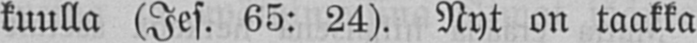kuulla (Jes. 65: 24). Nyt on taakka
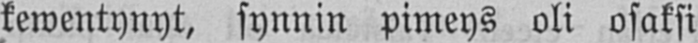kewentynyt, synnin pimeys oli osaksi
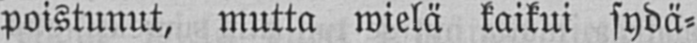poistunut, mutta wielä kaikui sydä-
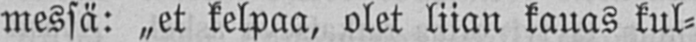messä: „et kelpaa, olet liian kauas kul-
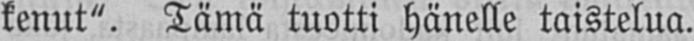kenut". Tämä tuotti hänelle taistelua.
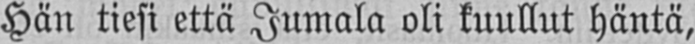Hän tiesi että Jumala oli kuullut häntä,
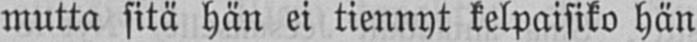mutta sitä hän ei tiennyt kelpaisiko hän
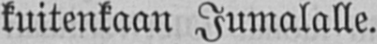kuitenkaan Jumalalle.
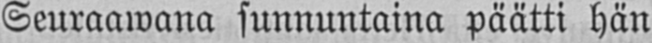Seuraawana sunnuntaina päätti hän
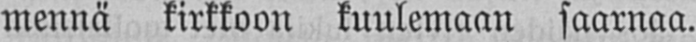mennä kirkkoon kuulemaan saarnaa.
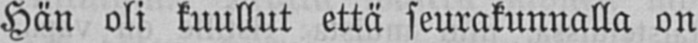Hän oli kuullut että seurakunnalla on
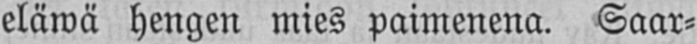eläwä hengen mies paimenena. Saar-
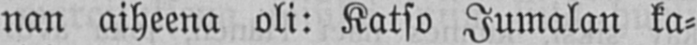nan aiheena oli: Katso Jumalan ka-
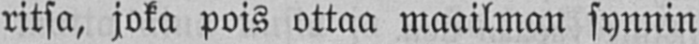ritsa, joka pois ottaa maailman synnin
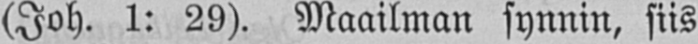(Joh. 1: 29). Maailman synnin, siis
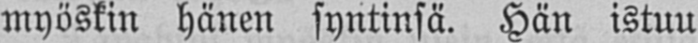myöskin hänen syntinsä. Hän istuu
